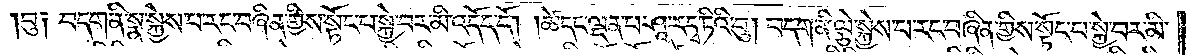བུ༏ བདག་ནི་སྣ་སྐྱེས་པ་རང་བཞིན་གྱིས་སྟོང་པ་སྐྱེ་བར་མི་འདོད་དོ། །ཚེ་དང་ལྡན་པ་ཤཱ་ར་དྭ་ཏིའི་བུ། བདག་ནི་ལྕེ་སྐྱེས་པ་རང་བཞིན་གྱིས་སྟོང་པ་སྐྱེ་བར་མི་
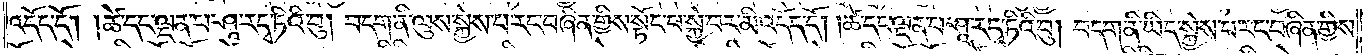འདོད་དོ། །ཚེ་དང་ལྡན་པ་ཤཱ་ར་དྭ་ཏིའི་བུ། བདག་ནི་ལུས་སྐྱེས་པ་རང་བཞིན་གྱིས་སྟོང་པ་སྐྱེ་བར་མི་འདོད་དོ། །ཚེ་དང་ལྡན་པ་ཤཱ་ར་དྭ་ཏིའི་བུ། བདག་ནི་ཡིད་སྐྱེས་པ་རང་བཞིན་གྱིས་
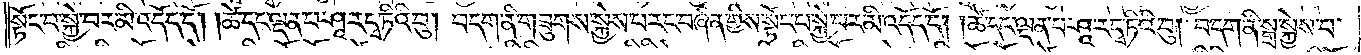སྟོང་པ་སྐྱེ་བར་མི་འདོད་དོ། །ཚེ་དང་ལྡན་པ་ཤཱ་ར་དྭ་ཏིའི་བུ། བདག་ནི་གཟུགས་སྐྱེས་པ་རང་བཞིན་གྱིས་སྟོང་པ་སྐྱེ་བར་མི་འདོད་དོ། །ཚེ་དང་ལྡན་པ་ཤཱ་ར་དྭ་ཏིའི་བུ། བདག་ནི་སྒྲ་སྐྱེས་པ་
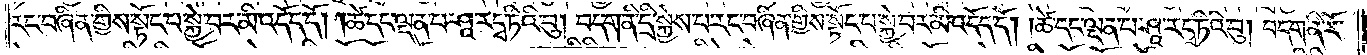རང་བཞིན་གྱིས་སྟོང་པ་སྐྱེ་བར་མི་འདོད་དོ། །ཚེ་དང་ལྡན་པ་ཤཱ་ར་དྭ་ཏིའི་བུ། བདག་ནི་དྲི་སྐྱེས་པ་རང་བཞིན་གྱིས་སྟོང་པ་སྐྱེ་བར་མི་འདོད་དོ། །ཚེ་དང་ལྡན་པ་ཤཱ་ར་དྭ་ཏིའི་བུ། བདག་ནི་རོ་
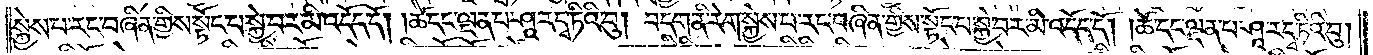སྐྱེས་པ་རང་བཞིན་གྱིས་སྟོང་པ་སྐྱེ་བར་མི་འདོད་དོ། །ཚེ་དང་ལྡན་པ་ཤཱ་ར་དྭ་ཏིའི་བུ། བདག་ནི་རེག་སྐྱེས་པ་རང་བཞིན་གྱིས་སྟོང་པ་སྐྱེ་བར་མི་འདོད་དོ། །ཚེ་དང་ལྡན་པ་ཤཱ་ར་དྭ་ཏིའི་བུ།
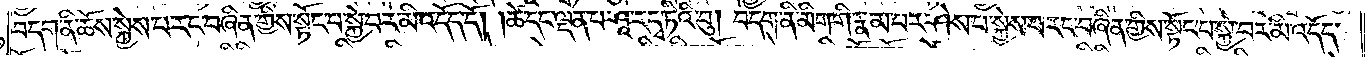བདག་ནི་ཆོས་སྐྱེས་པ་རང་བཞིན་གྱིས་སྟོང་པ་སྐྱེ་བར་མི་འདོད་དོ། །ཚེ་དང་ལྡན་པ་ཤཱ་ར་དྭ་ཏིའི་བུ། བདག་ནི་མིག་གི་རྣམ་པར་ཤེས་པ་སྐྱེས་པ་རང་བཞིན་གྱིས་སྟོང་པ་སྐྱེ་བར་མི་འདོད་
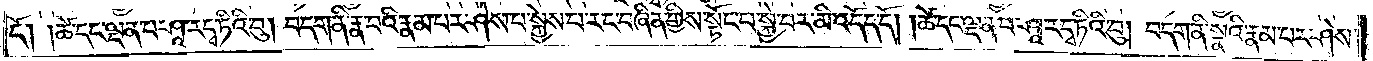དོ། །ཚེ་དང་ལྡན་པ་ཤཱ་ར་དྭ་ཏིའི་བུ། བདག་ནི་རྣ་བའི་རྣམ་པར་ཤེས་པ་སྐྱེས་པ་རང་བཞིན་གྱིས་སྟོང་པ་སྐྱེ་བར་མི་འདོད་དོ། །ཚེ་དང་ལྡན་པ་ཤཱ་ར་དྭ་ཏིའི་བུ། བདག་ནི་སྣའི་རྣམ་པར་ཤེས་
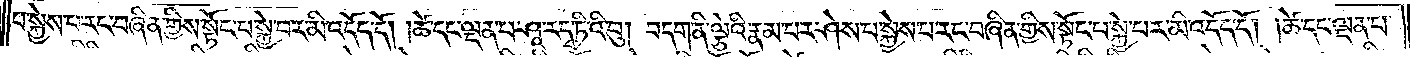པ་སྐྱེས་པ་རང་བཞིན་གྱིས་སྟོང་པ་སྐྱེ་བར་མི་འདོད་དོ། །ཚེ་དང་ལྡན་པ་ཤཱ་ར་དྭ་ཏིའི་བུ། བདག་ནི་ལྕེའི་རྣམ་པར་ཤེས་པ་སྐྱེས་པ་རང་བཞིན་གྱིས་སྟོང་པ་སྐྱེ་བར་མི་འདོད་དོ། །ཚེ་དང་ལྡན་པ་
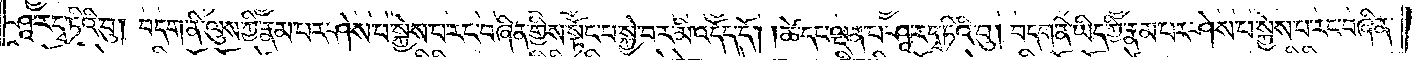ཤཱ་ར་དྭ་ཏིའི་བུ། བདག་ནི་ལུས་ཀྱི་རྣམ་པར་ཤེས་པ་སྐྱེས་པ་རང་བཞིན་གྱིས་སྟོང་པ་སྐྱེ་བར་མི་འདོད་དོ། །ཚེ་དང་ལྡན་པ་ཤཱ་ར་དྭ་ཏིའི་བུ། བདག་ནི་ཡིད་ཀྱི་རྣམ་པར་ཤེས་པ་སྐྱེས་པ་རང་བཞིན་
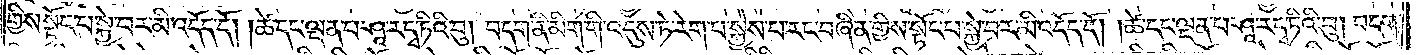གྱིས་སྟོང་པ་སྐྱེ་བར་མི་འདོད་དོ། །ཚེ་དང་ལྡན་པ་ཤཱ་ར་དྭ་ཏིའི་བུ། བདག་ནི་མིག་གི་འདུས་ཏེ་རེག་པ་སྐྱེས་པ་རང་བཞིན་གྱིས་སྟོང་པ་སྐྱེ་བར་མི་འདོད་དོ། །ཚེ་དང་ལྡན་པ་ཤཱ་ར་དྭ་ཏིའི་བུ། བདག་
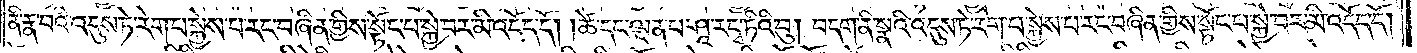ནི་རྣ་བའི་འདུས་ཏེ་རེག་པ་སྐྱེས་པ་རང་བཞིན་གྱིས་སྟོང་པ་སྐྱེ་བར་མི་འདོད་དོ། །ཚེ་དང་ལྡན་པ་ཤཱ་ར་དྭ་ཏིའི་བུ། བདག་ནི་སྣའི་འདུས་ཏེ་རེག་པ་སྐྱེས་པ་རང་བཞིན་གྱིས་སྟོང་པ་སྐྱེ་བར་མི་འདོད་དོ།
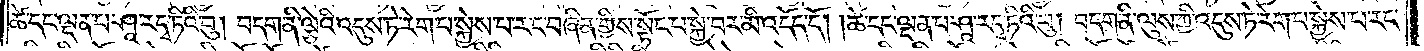ཚེ་དང་ལྡན་པ་ཤཱ་ར་དྭ་ཏིའི་བུ། བདག་ནི་ལྕེའི་འདུས་ཏེ་རེག་པ་སྐྱེས་པ་རང་བཞིན་གྱིས་སྟོང་པ་སྐྱེ་བར་མི་འདོད་དོ། །ཚེ་དང་ལྡན་པ་ཤཱ་ར་དྭ་ཏིའི་བུ། བདག་ནི་ལུས་ཀྱི་འདུས་ཏེ་རེག་པ་སྐྱེས་པ་རང་
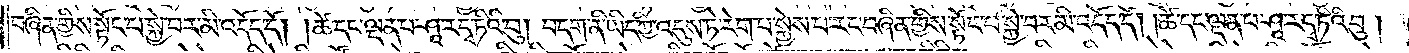བཞིན་གྱིས་སྟོང་པ་སྐྱེ་བར་མི་འདོད་དོ། །ཚེ་དང་ལྡན་པ་ཤཱ་ར་དྭ་ཏིའི་བུ། བདག་ནི་ཡིད་ཀྱི་འདུས་ཏེ་རེག་པ་སྐྱེས་པ་རང་བཞིན་གྱིས་སྟོང་པ་སྐྱེ་བར་མི་འདོད་དོ། །ཚེ་དང་ལྡན་པ་ཤཱ་ར་དྭ་ཏིའི་བུ།
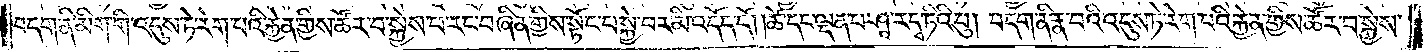བདག་ནི་མིག་གི་འདུས་ཏེ་རེག་པའི་རྐྱེན་གྱིས་ཚོར་བ་སྐྱེས་པ་རང་བཞིན་གྱིས་སྟོང་པ་སྐྱེ་བར་མི་འདོད་དོ། །ཚེ་དང་ལྡན་པ་ཤཱ་ར་དྭ་ཏིའི་བུ། བདག་ནི་རྣ་བའི་འདུས་ཏེ་རེག་པའི་རྐྱེན་གྱིས་ཚོར་བ་སྐྱེས་
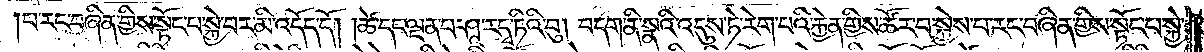པ་རང་བཞིན་གྱིས་སྟོང་པ་སྐྱེ་བར་མི་འདོད་དོ། །ཚེ་དང་ལྡན་པ་ཤཱ་ར་དྭ་ཏིའི་བུ། བདག་ནི་སྣའི་འདུས་ཏེ་རེག་པའི་རྐྱེན་གྱིས་ཚོར་བ་སྐྱེས་པ་རང་བཞིན་གྱིས་སྟོང་པ་སྐྱེ་
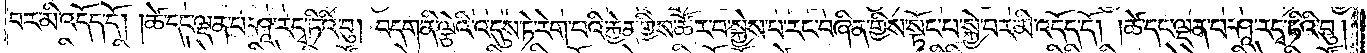བར་མི་འདོད་དོ། །ཚེ་དང་ལྡན་པ་ཤཱ་ར་དྭ་ཏིའི་བུ། བདག་ནི་ལྕེའི་འདུས་ཏེ་རེག་པའི་རྐྱེན་གྱིས་ཚོར་བ་སྐྱེས་པ་རང་བཞིན་གྱིས་སྟོང་པ་སྐྱེ་བར་མི་འདོད་དོ། །ཚེ་དང་ལྡན་པ་ཤཱ་ར་དྭ་ཏིའི་བུ།
